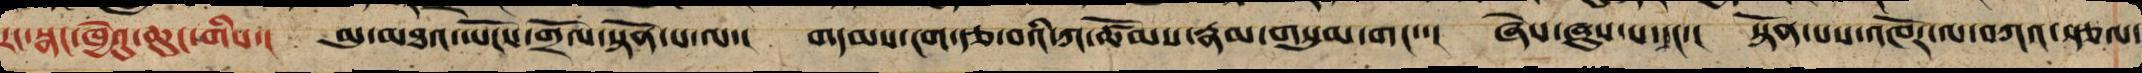རང་སྣང་ཁྱེའུ་ཆུང་གིས་། མུ་མཐའ་ཡོངས་གྲོལ་སྟོན་པ་ལ་། གདམས་ངག་རྩ་བའི་ཀ་ཚོམས་རྣམ་གསུམ་གང་་། ཞེས་ཞུས་པ་དང་། སྟོན་པས་འཁོར་ལ་བཀའ་སྩལ་
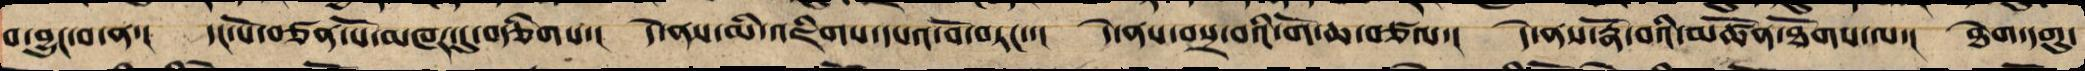བ་བྱུང་བ་ན་། དང་པོ་བཙན་པོ་མཁར་དུ་བརྩིགས་། དེ་ནས་མི་འཇིགས་དཔའ་བོ་བཏང་་། དེ་ནས་བསྲ་བའི་གོ་ཆ་བཙལ་། དེ་ནས་རྣོ་བའི་མཚོན་ཐོགས་ལ་། ཐེག་དགུ་
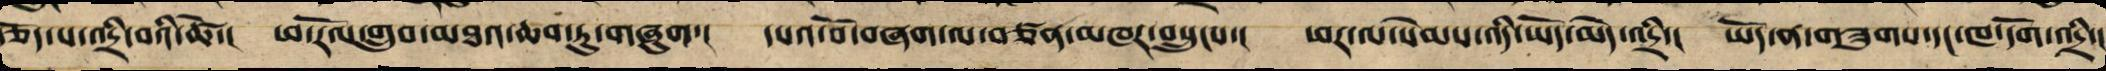རྩོད་པ་འདྲི་བའི་ཚེ་། ཕ་རོལ་གྲུབ་མཐའ་ཆབ་ཏུ་གཞུག་། དཔའ་བོ་བཞག་ལ་བཙན་མཁར་བསྲུངས་། ཕར་ལ་སེམས་འདི་ཡོད་མེད་འདྲི་། ཡོད་ན་གཟུགས་དང་ཁ་དོག་འདྲི་།
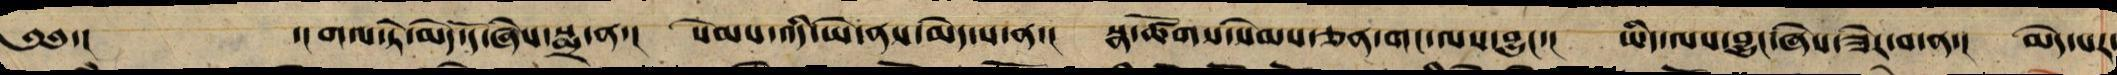༄༅་། ་།གལ་ཏེ་མེད་དོ་ཞེས་སྨྲ་ན་། སེམས་འདི་ཡེ་ནས་མེད་པ་ན་། སྣ་ཚོགས་སེམས་ཅན་གང་ལས་བྱུང་། ཡིད་ལས་བྱུང་ཞེས་ཟེར་བ་ན་། མེད་པར་
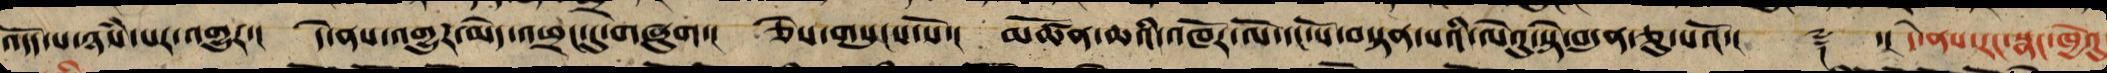འདོད་པ་ཉཾས་པར་འགྱུར་། དེ་ནས་འགྱུར་མེད་འཕྲང་དུ་གཞུག་། ཅེས་གསུངས་སོ་། མཚོན་ཆའི་འཁོར་ལོ་དང་པོ་བསྟན་པའི་ལེའུ་སྟེ་བདུན་ཅུ་པའོ་།། ༈ ་། དེ་ནས་རང་སྣང་ཁྱེའུ
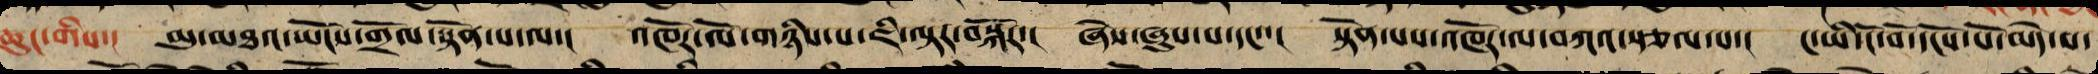ཆུང་གིས་། མུ་མཐའ་ཡོངས་གྲོལ་སྟོན་པ་ལ་། འཁོར་ལོ་གཉིས་པ་ཇི་ལྟར་བསྐོར་། ཞེས་ཞུས་པ་དང་་། སྟོན་པས་འཁོར་ལ་བཀའ་སྩལ་པ་། ང་ཡི་ངོ་བོ་དངོས་པོ་མེད་པ་
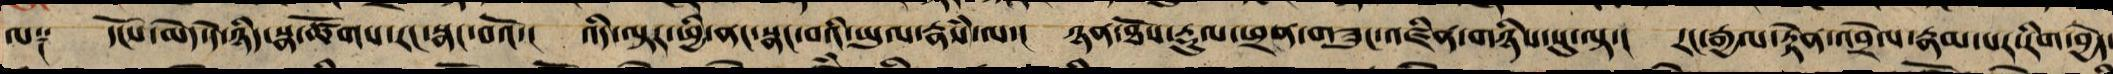ལ༑ དངོས་མེད་དེ་ཉིད་སྣ་ཚོགས་རང་སྣང་བའོ་། འདི་ལྟར་ཕྱི་ནང་སྣང་བའི་ཡུལ་རྣཾས་ལ་། ཉན་ཐོས་རྡུལ་ཕྲན་གཟུང་འཛིན་གཉིས་སུ་བལྟ་། རང་རྒྱལ་རྟེན་འབྲེལ་རྣམ་པར་རིག་བྱེད་
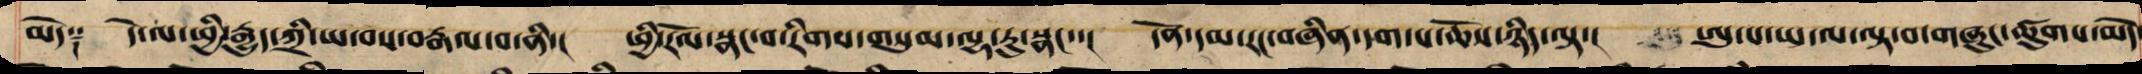མེད༑ དེ་ལ་ཕྱི་རྒྱུད་ཀྲི་ཡ་བས་བརྒལ་བ་ནི་། ཕྱི་རོལ་སྣང་བ་རིགས་གསུམ་ལྷ་རུ་སྣང་་། དོན་དམ་རང་བཞིན་དག་པ་ཆོས་ཉིད་ལྟ་། ཨུ་པ་ཡ་ལ་ལྟ་བ་གཞུང་ཚུགས་མེད
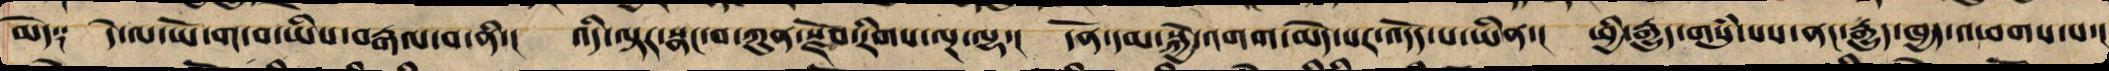མེད༑ དེ་ལ་ཡོ་ག་པ་ཡིས་བརྒལ་བ་ནི་། འདི་ལྟར་སྣང་བ་ཀུན་སྫོབ་རིགས་ལྔ་ལྷ་། དོན་དམ་སྐྱེ་འགག་མེད་པར་འདོད་པ་ཡིན་། ཕྱི་རྒྱུད་གསུཾ་པས་ནང་རྒྱུད་ཁྱད་འཕགས་པ་།
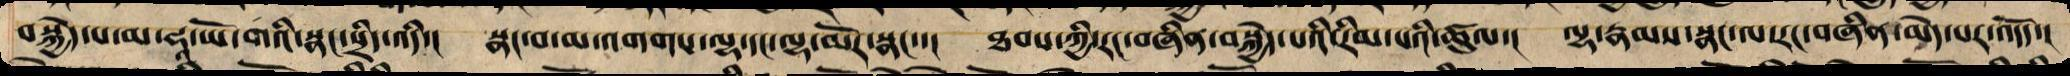བསྐྱེད་པ་མ་ཧཱ་ཡོ་གས་སྣང་སྲིད་འདི་། སྣང་བ་མ་འགགས་ལྷ་དང་ལྷ་མོར་སྣང་་། ཐབས་ཀྱི་རང་བཞིན་བསྐྱེད་པའི་རིམ་པའི་ཚུལ་། ལྷ་རྣམས་སྣང་ལ་རང་བཞིན་མེད་པར་འདོད་།
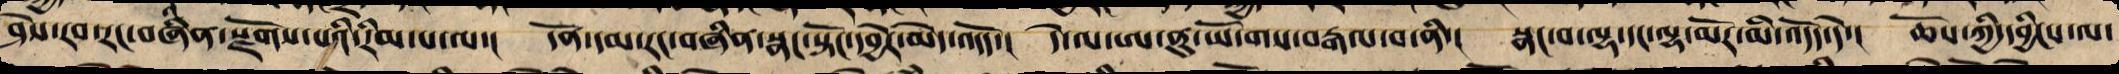ཤེས་རབ་རང་བཞིན་སྫོགས་པའི་རིམ་པ་ལ་། དོན་དམ་རང་བཞིན་སྣང་སྟོང་དབྱེར་མེད་འདོད་། དེ་ལ་ཨ་ནུ་ཡོ་གས་བརྒལ་བ་ནི་། སྣང་བ་ལྷ་དང་ལྷ་མོར་མི་འདོད་དེ་། ཆོས་ཀྱི་དབྱིངས་ལ་
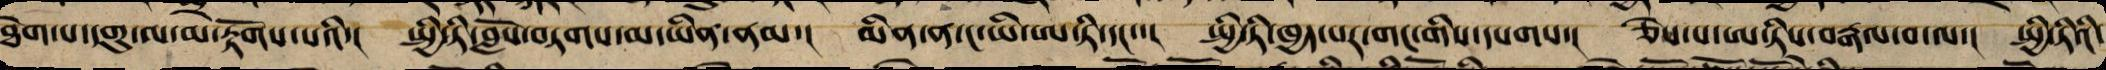ཐེག་པ་དགུ་ལ་མ་རྟོགས་པའི་། སྤྱི་ཏི་བློས་བཏགས་མ་ཡིན་ནམ་། མིན་ན་ང་ཡི་ཨ་ཏི་དང་་། སྤྱི་ཏི་ཁྱད་པར་གང་གིས་དཔགས་། ཅེས་པ་ཨ་ཏིས་བརྒལ་བ་ལ་། སྤྱི་ཏིའི་
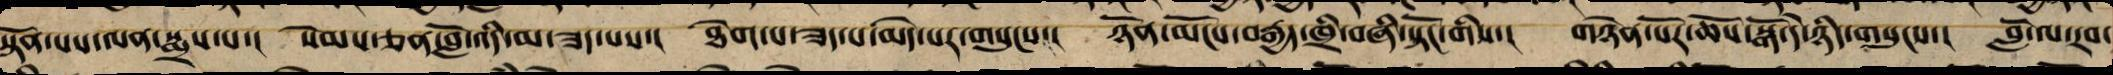སྟོན་པས་ལན་སྨྲས་པ་། སེམས་ཅན་བློ་འདི་མ་ཟད་པས་། ཐེག་པ་ཟད་པ་མེད་པར་གསུངས་། ཉོན་མོངས་བརྒྱད་ཁྲི་བཞི་སྟོང་གིས་། གཉེན་པོར་ཆོས་སྒོ་དེ་ཉིད་གསུངས་། བློ་ལ་རབ་
